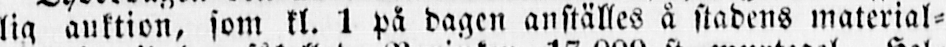lig auktion, som kl. 1 på dagen anställes å stadens material-
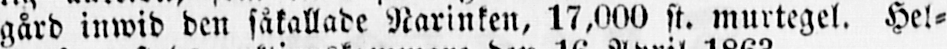gård inwid den såkallade Narinken, 17,000 st. murtegel. Hel-
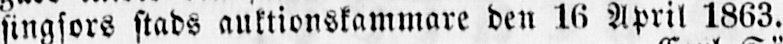singfors stads auktionskammare den 16 April 1863.
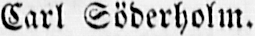Carl Söderholm.
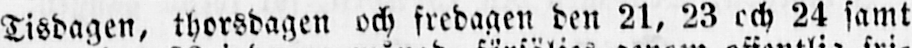Tisdagen, thorsdagen och fredagen den 21, 23 och 24 samt
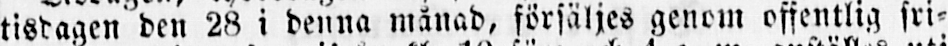tisdagen den 28 i denna månad, försäl jes genom offentlig fri-
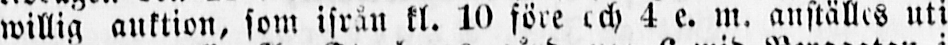willig auktion, som ifrån kl. 10 före och 4 e. m. anställes uti
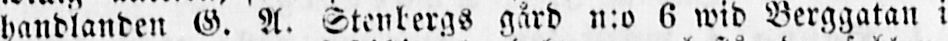handlanden G. A. Stenbergs gård n:o 6 wid Berggatan i
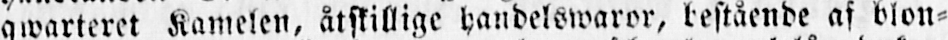qwarteret Kamelen, åtskillige handelswaror, bestående af blon-
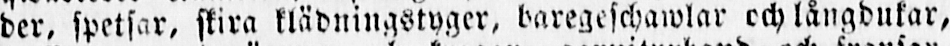der, spetsar, skira klädningstyger, baregeschawlar och långdukar,
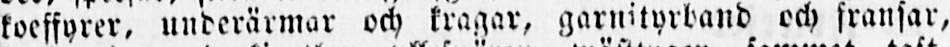koeffyrer, underärmar och kragar, garnityrband och fransar,
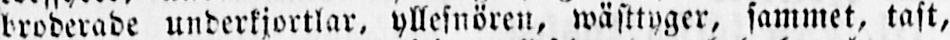broderade underkjortlar, yllesnören, wästtyger, sammet, taft,
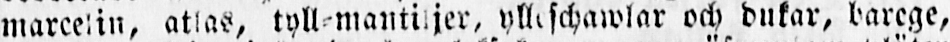marcelin, atlas, tyll-mantiljer, ylleschawlar och dukar, barege,
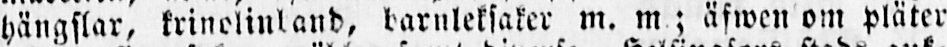hängslar, krinolinband, barnleksaker m. m.; äfwen om pläter
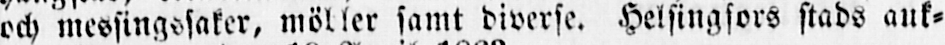och messingssaker, möbler samt diverse. Helsingfors stads auk-
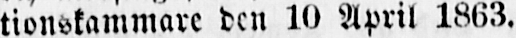tionskammare den 10 April 1863.
